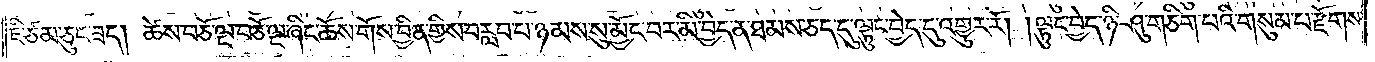ཇི་ཙམ་ཅུང་ཟད། ཚེས་བཅོ་ལྔ་བཅོ་ལྔ་ཞིང་ཆོས་གོས་བྱིན་གྱིས་བརླབ་པ་ཉམས་སུ་མྱོང་བར་མི་བྱེད་ན་ཐམས་ཅད་དུ་ལྟུང་བྱེད་དུ་འགྱུར་རོ། །ལྟུང་བྱེད་ཉི་ཤུ་གཅིག་པའི་གསུམ་པ་རྫོགས་
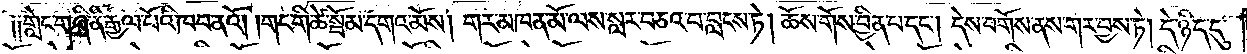༑༑གླེང་གཞི་ནི་རྒྱལ་པོའི་ཁབ་ནའོ། །གང་གི་ཚེ་སྦོམ་དགའ་མོས། གར་མཁན་མོ་ལས་སླར་བཅའ་བ་བླངས་ཏེ། ཆོས་གོས་བྱིན་པ་དང༌། དེས་བགོས་ནས་གར་བྱས་ཏེ། དེ་ཉིད་དུ་
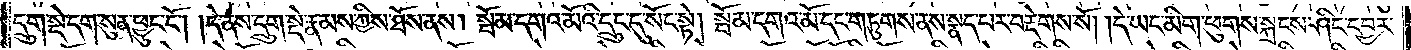དྲུག་སྡེ་དག་སུན་ཕྱུང་ངོ༌། །དེ་ནས་དྲུག་སྡེ་རྣམས་ཀྱིས་ཐོས་ནས། སྦོམ་དགའ་མོའི་དྲུང་དུ་སོང་སྟེ། སྦོམ་དགའ་མོ་དང་གཏུགས་ནས་སྣད་པར་བརྡེགས་སོ། །དེ་ཡང་མིག་ཕུགས་སྐྲངས་ཤིང་དབྱར་
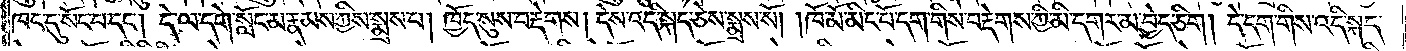ཁང་དུ་སོང་བ་དང༌། དེ་ལ་དགེ་སློང་མ་རྣམས་ཀྱིས་སྨྲས་པ། ཁྱོད་སུས་བརྡེགས། དེས་འདི་སྐད་ཅེས་སྨྲས་སོ། །ཁོ་མོ་མིང་པོ་དག་གིས་བརྡེགས་ཀྱི་མི་དགར་མ་བྱེད་ཅིག །དེ་དག་གིས་འདི་སྐད་
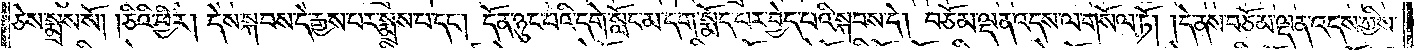ཅེས་སྨྲས་སོ། །ཅིའི་ཕྱིར། དེས་སྐབས་དེ་རྒྱས་པར་སྨྲས་པ་དང༌། དོན་ཉུང་བའི་དགེ་སློང་མ་དག་སྨོད་པར་བྱེད་པའི་སྐབས་དེ། བཅོམ་ལྡན་འདས་ལ་གསོལ་ཏོ། །དེ་ནས་བཅོམ་ལྡན་འདས་ཀྱིས་
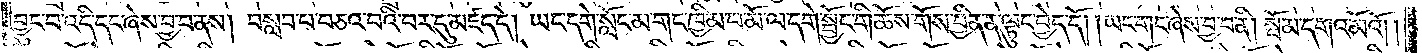བྱུང་བ་འདི་དང་ཞེས་བྱ་བ་ནས། བསླབ་པ་བཅའ་བའི་བར་དུ་མཛད་དེ། ཡང་དགེ་སློང་མ་གང་ཁྱིམ་པ་མོ་ལ་དགེ་སྦྱོང་གི་ཆོས་གོས་བྱིན་ན་ལྟུང་བྱེད་དོ། །ཡང་གང་ཞེས་བྱ་བ་ནི། སྦོམ་དགའ་མོའོ༎
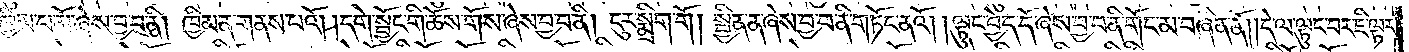ཁྱིམ་པ་མོ་ཞེས་བྱ་བ་ནི། ཁྱིམ་ན་གནས་པའོ། །དགེ་སྦྱོང་གི་ཆོས་གོས་ཞེས་བྱ་བ་ནི། ངུར་སྨྲིག་གོ །སྦྱིན་ན་ཞེས་བྱ་བ་ནི་གཏོང་ནའོ། །ལྟུང་བྱེད་དོ་ཞེས་བྱ་བ་ནི་གོང་མ་བཞིན་ནོ། །དེ་ལ་ལྟུང་བར་ཇི་ལྟར་
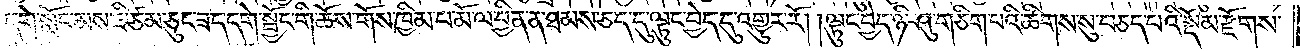དགེ་སློང་མས་ཇི་ཙམ་ཅུང་ཟད་དགེ་སྦྱོང་གི་ཆོས་གོས་ཁྱིམ་པ་མོ་ལ་བྱིན་ན་ཐམས་ཅད་དུ་ལྟུང་བྱེད་དུ་འགྱུར་རོ། །ལྟུང་བྱེད་ཉི་ཤུ་གཅིག་པའི་ཚིགས་སུ་བཅད་པའི་སྡོམ་རྫོགས་
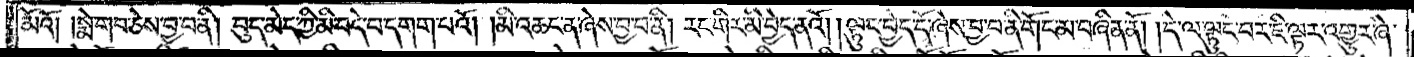མོའོ། །སྨེ་གབ་ཅེས་བྱ་བ་ནི། བུད་མེད་ཀྱི་མི་བདེ་བ་དགག་པའོ། །མི་འཆང་ན་ཞེས་བྱ་བ་ནི། རང་གིར་མི་བྱེད་ནའོ། །ལྟུང་བྱེད་དོ་ཞེས་བྱ་བ་ནི་གོང་མ་བཞིན་ནོ། །དེ་ལ་ལྟུང་བར་ཇི་ལྟར་འགྱུར་ཞེ་
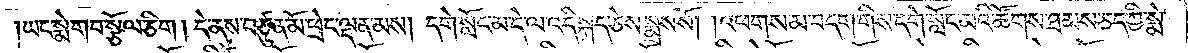།ཡང་སྨེ་གབ་སྩོལ་ཅིག །དེ་ནས་བཙུན་མོ་ཕྲེང་ལྡན་མས། དགེ་སློང་མ་དེ་ལ་འདི་སྐད་ཅེས་སྨྲས་སོ། །འཕགས་མ་བདག་གིས་དགེ་སློང་མའི་ཚོགས་ཐམས་ཅད་ཀྱི་སྨེ་
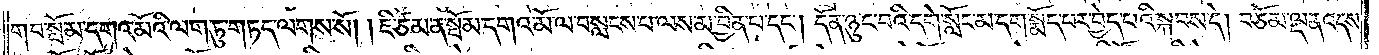གབ་སྦོམ་དགའ་མོའི་ལག་ཏུ་གཏད་ལགས་སོ། །ཇི་ཙམ་ན་སྦོམ་དགའ་མོ་ལ་བསླངས་པ་ལས་མ་བྱིན་པ་དང༌། དོན་ཉུང་བའི་དགེ་སློང་མ་དག་སྨོད་པར་བྱེད་པའི་སྐབས་དེ། བཅོམ་ལྡན་འདས་
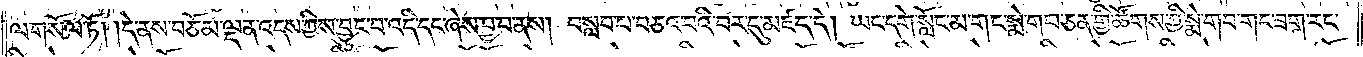ལ་གསོལ་ཏོ། །དེ་ནས་བཅོམ་ལྡན་འདས་ཀྱིས་བྱུང་བ་འདི་དང་ཞེས་བྱ་བ་ནས། བསླབ་པ་བཅའ་བའི་བར་དུ་མཛད་དེ། ཡང་དགེ་སློང་མ་གང་སྨེ་གབ་ཅན་གྱི་ཚོགས་ཀྱི་སྨེ་གབ་གང་ཟག་རང་
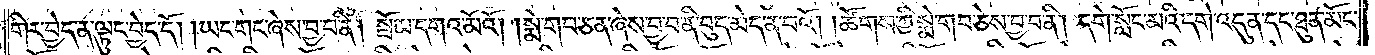གིར་བྱེད་ན་ལྟུང་བྱེད་དོ། །ཡང་གང་ཞེས་བྱ་བ་ནི། སྦོམ་དགའ་མོའོ། །སྨེ་གབ་ཅན་ཞེས་བྱ་བ་ནི་བུད་མེད་ན་བའོ། །ཚོགས་ཀྱི་སྨེ་གབ་ཅེས་བྱ་བ་ནི། དགེ་སློང་མའི་དགེ་འདུན་དང་ཐུན་མོང་
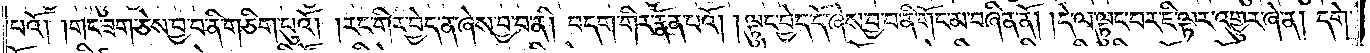པའོ། །གང་ཟག་ཅེས་བྱ་བ་ནི་གཅིག་པུའོ། །རང་གིར་བྱེད་ན་ཞེས་བྱ་བ་ནི། བདག་གིར་རྣོན་པའོ། །ལྟུང་བྱེད་དོ་ཞེས་བྱ་བ་ནི་གོང་མ་བཞིན་ནོ། །དེ་ལ་ལྟུང་བར་ཇི་ལྟར་འགྱུར་ཞེ་ན། དགེ་
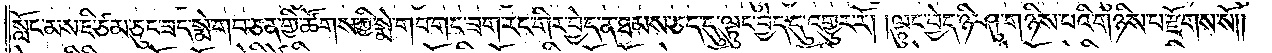སློང་མས་ཇི་ཙམ་ཅུང་ཟད་སྨེ་གབ་ཅན་གྱི་ཚོགས་ཀྱི་སྨེ་གབ་གང་ཟག་རང་གིར་བྱེད་ན་ཐམས་ཅད་དུ་ལྟུང་བྱེད་དུ་འགྱུར་རོ། །ལྟུང་བྱེད་ཉི་ཤུ་གཉིས་པའི་གཉིས་པ་རྫོགས་སོ༎
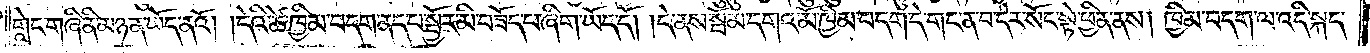གླེང་གཞི་ནི་མཉན་ཡོད་ནའོ། །དེའི་ཚེ་ཁྱིམ་བདག་ནད་པ་སྦྱོར་མི་བཟོད་པ་ཞིག་ཡོད་དོ། །དེ་ནས་སྦོམ་དགའ་མོ་ཁྱིམ་བདག་དེ་གང་ན་བ་དེར་སོང་སྟེ་ཕྱིན་ནས། ཁྱིམ་བདག་ལ་འདི་སྐད་
